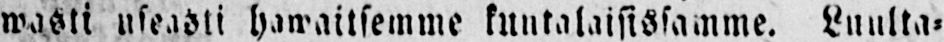wasti useasti hawaitsemme kuntalaisissamme. Luulta-
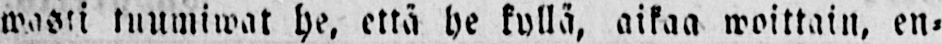wasti tuumiwat he, että he kyllä, aikaa woittain, en-
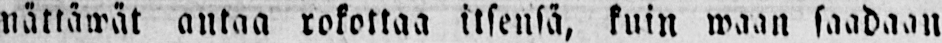nättäwät antaa rokottaa itsensä, kuin waan saadaan
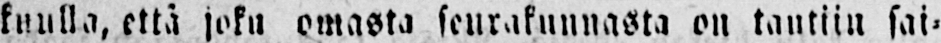kuulla, että joku omasta seurakunnasta on tautiin sai-
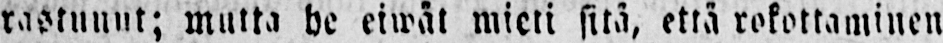rastuuut; mutta he eiwät mieti sitä, että rokottaminen
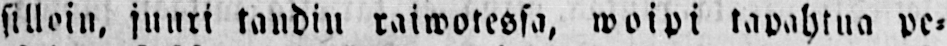silloin, juuri taudin raiwotessa, woipi tapahtua pe-
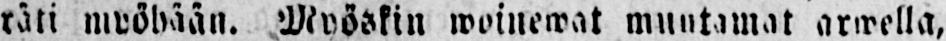räti myöhään. Myöskin woinewat muutamat arwella,
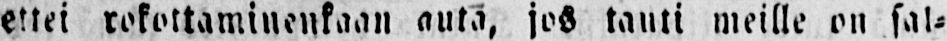ettei rokottaminenkaan auta, jos tauti meille on sal-
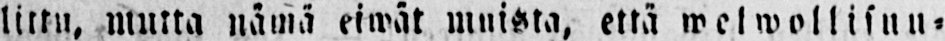littu, mutta nämä eiwät muista, että welwollisuu-
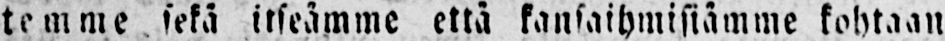temme sekä itseämme että kansaihmisiämme kohtaan
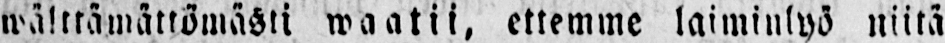wälttämättömästi waatii, ettemme laiminlyö niitä
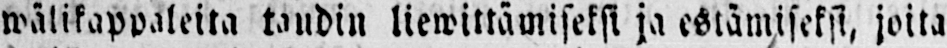wälikappaleita taudin liewittämiseksi ja estämiseksi, joita
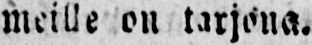meille on tarjona.
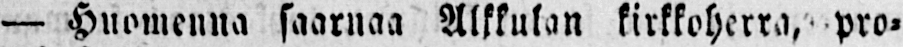— Huomenna saarnaa Alkkulan kirkkoherra, pro-
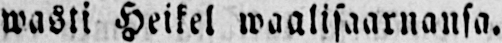wasti Heikel waalisaarnansa.
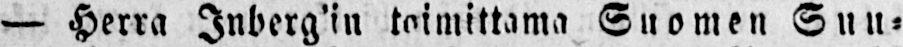— Herra Inberg'in toimittama Suomen Suu-
